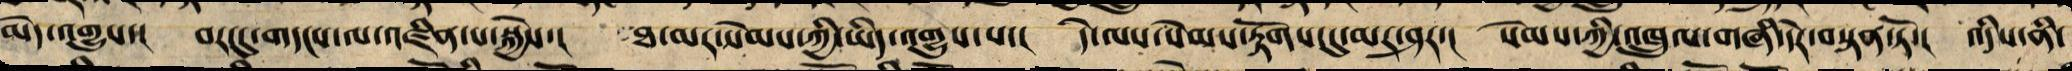མེད་འགྱུས་། བར་དུ་གདངས་ལ་འཛིན་པ་སྐྱེས་། ཐ་མར་སེམས་ཀྱི་ཡིད་འགྱུས་པ་། དེ་ལས་སེམས་རྟོགས་དུ་མ་ཤར་། སེམས་ཀྱི་འཁྲུལ་གཞི་དེར་བསྟན་ཏོ་། འདིས་ནི་
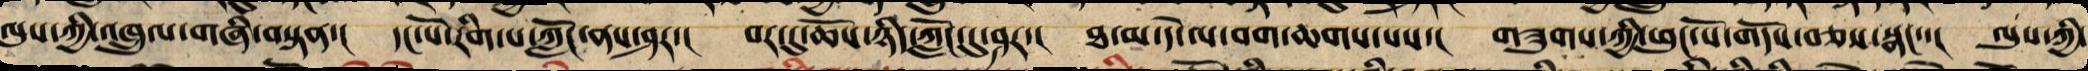ལུས་ཀྱི་འཁྲུལ་གཞི་བསྟན་། དང་པོ་རིག་པ་ཀློང་ནས་ཤར་། བར་དུ་ཆོས་ཉིད་ཀློང་དུ་ཤར་། ཐ་མ་དེ་ལ་བག་ཆགས་པས་། གཟུགས་ཀྱི་ཕུང་པོ་གདོས་བཅས་སྣང་་། ལུས་ཀྱི་
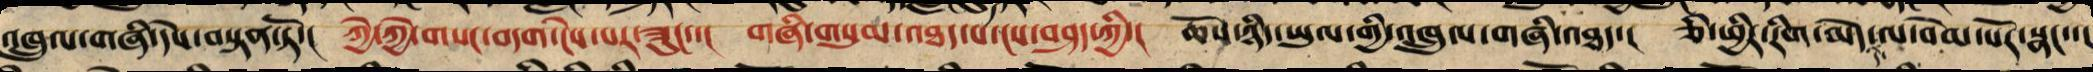འཁྲུལ་གཞི་དེས་བསྟན་ཏོ་། ཀྱེ་ཀྱེ་གསང་བདག་ངེས་པར་ཟུང་་། གཞི་གསུམ་འཐད་པ་ངས་བཤད་ཀྱི་། ཆོས་ཉིད་ཡུལ་གྱི་འཁྲུལ་གཞི་འཐད་། ཅི་ཕྱིར་རིག་མེད་ལ་བེམ་པོར་སྣང་་།
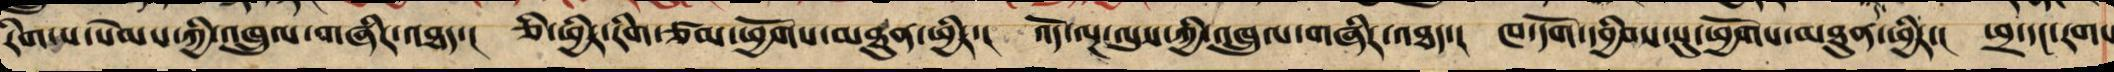རིག་པ་སེམས་ཀྱི་འཁྲུལ་གཞིར་འཐད་། ཅི་ཕྱིར་རིག་ཙམ་ཕྱོགས་མཐུན་ཕྱིར་། འོད་ལྔ་ལུས་ཀྱི་འཁྲུལ་གཞིར་འཐད་། ཁ་དོག་དབྱིབས་སུ་ཕྱོགས་མཐུན་ཕྱིར་། ཕྲ་དང་རགས
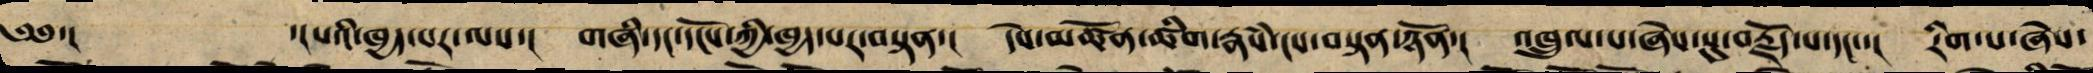༄༅་། ་།པའི་ཁྱད་པར་ལས་། གཞི་དང་དངོས་ཀྱི་ཁྱད་པར་བསྟན་། དེས་མཚོན་ཚིག་རྣཾས་ངས་བསྟན་ཉོན་། འཁྲུལ་པ་ཞེས་སུ་བརྗོད་པ་དང་་། རིག་པ་ཞེས་
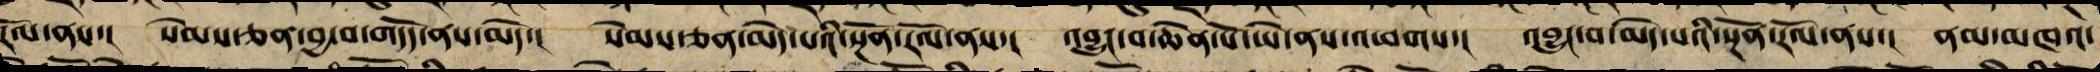རོལ་ནས་། སེམས་ཅན་བྱ་བ་གདོད་ནས་མེད་། སེམས་ཅན་མེད་པའི་སྔོན་རོལ་ནས་། འབྱུང་བ་ཆེན་པོ་ཡེ་ནས་འཕགས་། འབྱུང་བ་མེད་པའི་སྔོན་རོལ་ནས་། ནམ་མཁའ་
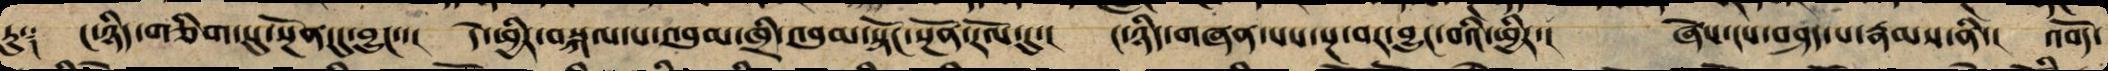རུ༑ ང་ཉིད་གཅིག་པུ་སྔོན་དུ་བྱུང་་། དེ་ཕྱིར་བསྐལ་པ་འབུམ་ཁྲི་འབུམ་སྟོང་སྔོན་རོལ་དུ་། ང་ཉིད་གཞན་པས་སྔ་བར་བྱུང་བའི་ཕྱིར་། ཞེས་ངས་བཤད་པ་རྣམས་ནི་། འབོད་
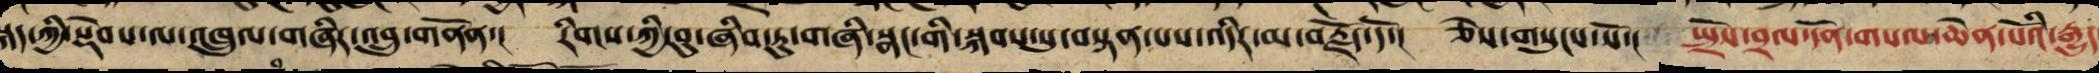སྐད་ཀྱི་སྡེབས་ལ་འཁྲུལ་གཞིར་འབྲུ་གནོན་། རིགས་ཀྱི་བུ་ཞིབ་ཏུ་གཞི་སྣང་གི་སྐབས་སུ་བསྟན་པས་འདིར་མ་བརྗོད་དོ་། ཅེས་གསུངས་སོ་། སྤྲོས་བྲལ་དོན་གསལ་ཆེན་པོའི་རྒྱུད
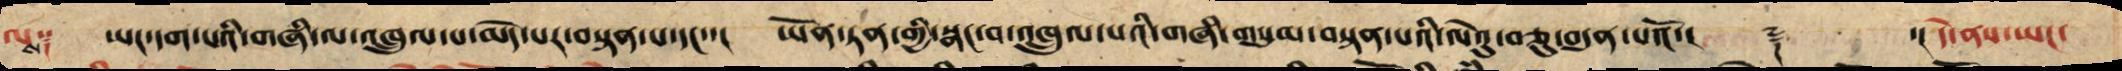ལ༑ ཡང་དག་པའི་གཞི་ལ་འཁྲུལ་པ་མེད་པར་བསྟན་པ་དང་་། ཡོན་ཏན་གྱི་སྣང་བ་འཁྲུལ་པའི་གཞི་གསུམ་བསྟན་པའི་ལེའུ་སྟེ་བཅུབདུན་པའོ་། ༈ ་། དེ་ནས་ཡང་
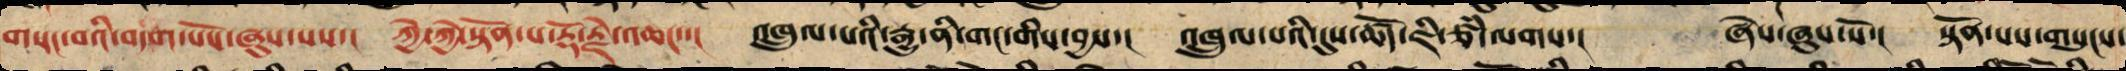གསང་བའི་བདག་པོས་ཞུས་པས་། ཀྱེ་ཀྱེ་སྟོན་པ་རྡོ་རྗེ་འཆང་་། འཁྲུལ་པའི་རྒྱུ་ནི་གང་གིས་བྱས་། འཁྲུལ་པའི་དུས་ཚོད་ཇི་ཙཾ་ལགས་། ཞེས་ཞུས་སོ་། སྟོན་པས་གསུངས་
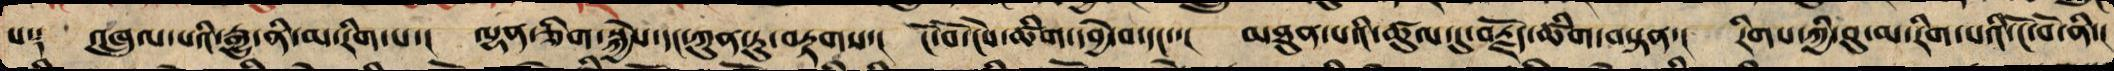པ༑ འཁྲུལ་པའི་རྒྱུ་ནི་མ་རིག་པ་། ལྷན་ཅིག་སྐྱེས་དང་ཀུན་ཏུ་བརྟགས་། ངོ་བོ་ངེས་ཚིག་དབྱེ་བ་དང་་། མཐུན་པའི་ཚུལ་དུ་བརྗོད་ཚིག་བསྟན་། རིགས་ཀྱི་བུ་མ་རིག་པའི་ངོ་བོ་ནི་།
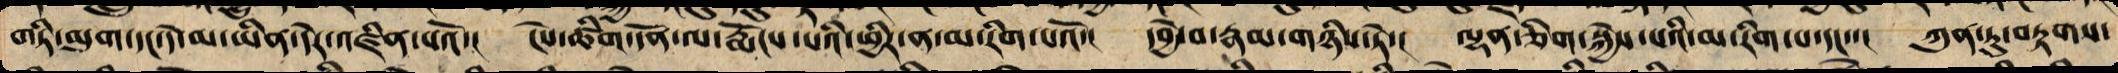གཏི་མུག་དང་དེ་མ་ཡིན་དེར་འཛིན་པའོ་། ངེས་ཚིག་དོན་ལ་རྨོངས་པའི་ཕྱིར་ན་མ་རིག་པའོ་། དབྱེ་བ་རྣམ་གཉིས་ཏེ་། ལྷན་ཅིག་སྐྱེས་པའི་མ་རིག་པ་དང་་། ཀུན་ཏུ་བརྟགས་
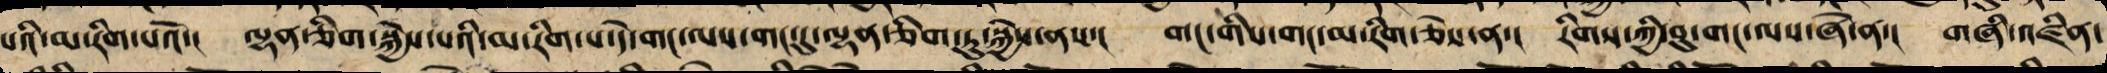པའི་མ་རིག་པའོ་། ལྷན་ཅིག་སྐྱེས་པའི་མ་རིག་པ་དེ་གང་ལས་གང་དུ་ལྷན་ཅིག་ཏུ་སྐྱེས་ནས་། གང་གིས་གང་མ་རིག་ཅེས་ན་། རིགས་ཀྱི་བུ་གང་ལས་ཞེ་ན་། གཞི་འཛིན་
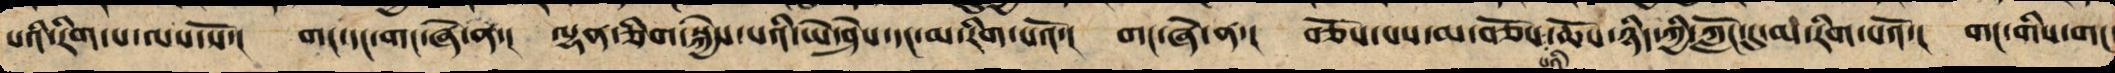པའི་རིག་པ་ལས་སོ་། གང་དང་གང་ཞེ་ན་། ལྷན་ཅིག་སྐྱེས་པའི་ཡེ་ཤེས་དང་མ་རིག་པའོ་། གང་ཞེ་ན་། བཅོས་པས་མ་བཅོས་ཆོས་ཉིད་ཀྱི་ཀློང་དུ་མ་རིག་པའོ་། གང་གིས་གང་
